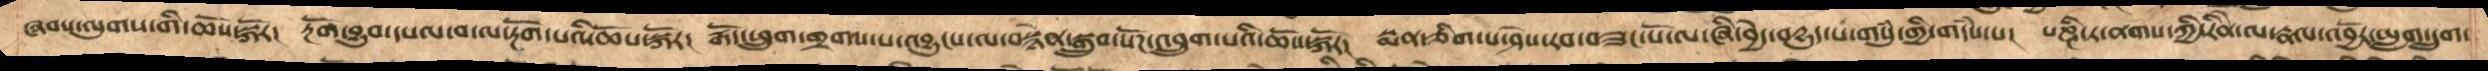ཞབས་ལུགས་གི་ཆོས་སྐོར།  རྔོག་བྱུབ་དཔལ་བ་ལ་རྔོག་པའི་ཆོས་སྐོར།  རྒོད་ཕྲུག་གྲགས་པ་འབྱུངས་ལ་བསྙེན་སྒྲུབ་སོཌ་འབྲུག་པའི་ཆོས་སྐོར།  སྨན་ཅིག་པ་ཤེས་རབ་བཟང་པོ་ལ་ཞི་བྱེད་བདྱུད་པ་གསུཾ་གྱི་གདཾས་པ།  པཎྜི་ཏ་ནགས་ཀྱི་རིནེ་ལ་རྣལ་འབྱོར་ཡླག་དྲུག་
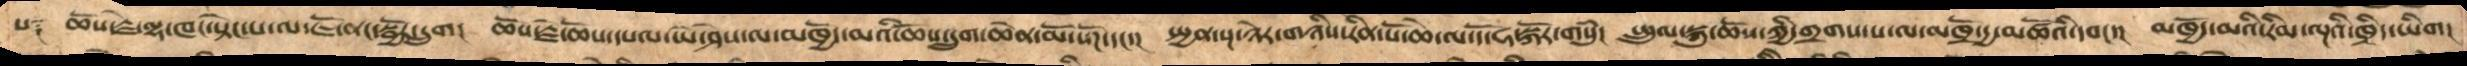པ༑  ཆོས་རྗེ་ལྷ་ཁང་སྟེང་པ་ལ་ཇོ་ནང་སྦྱོར་དྲུག།   ཆོས་རྗེ་ཆོས་དཔལ་ཡེ་ཤེས་ལ་མཁྱོད་མའི་ཆོས་དྲུག་ཆེན་མོ་སོཌ་དང་།  སྤྱན་སྔ་ཉེར་གཉིས་རིན་པོ་ཆེ་ལ་དོ་ཧ་སྐོར་གསུཾ།   སྤྲུལ་སྐུ་ཆོས་ཀྱི་གྲགས་པ་ལ་མཁྲོ་དྱ་མཚོའི་དབང་།   མཁྱོད་མའི་རིམ་ལྔའི་ཁྲིད་ཡིག་
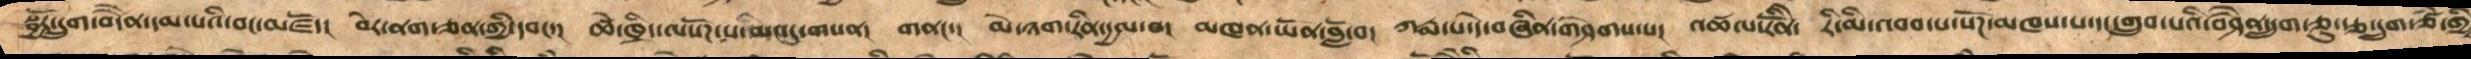སྦྱོར་དྲུག་བདཻན་དམ་པའི་བང་མཛོད།  བེར་ནག་ཅན་གྱི་དབང་།  ཚེ་ཁྲིད་ལསོཌ་པ་མང་དུ་གསན།  གནང་།  མེ་ཉག་རིན་དྱལ་བ།  མཁན་་ཡོན་བློ་བ་   ཀརྨ་པ་དེ་བཞིན་གཤེགས་པ།   འཚལ་རིནོ་ེ   རི་མི་འབབ་པ་སོཌ་མཁས་པ་དང་གྲུབ་པའི་བཤཻན་དྲུག་ཅུ་རྩ་དྲུག་ཙཾ་གྱི
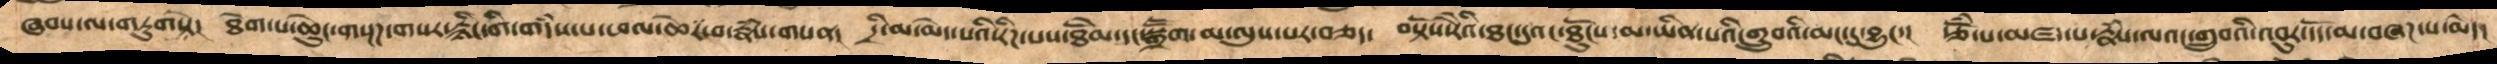ཞབས་ལ་གཏུགསྟེ།  ཐེག་པ་ཆེུང་གསྔཌ་གསར་རྙིང་གི་གདཾས་པ་ཕལ་ཆེར་བ་རྣཾས་གསན།   དྲི་མ་མེད་པའི་རིཌ་པས་ཐེམོ་དང་སྒྲཽག་མ་ལུས་པར་བཅད་  བསྟོས་རཻའི་ཐང་དུའང་ཐོུངས་མ་ཡིན་པའི་གྲུབའི་མང་དུ་འབྱུང་།   རྩོཾ་པ་མཛད་པ་རྣཾས་ལའང་གྲུབའི་འབུར་དོད་མ་བཞཌ་པ་མེད།
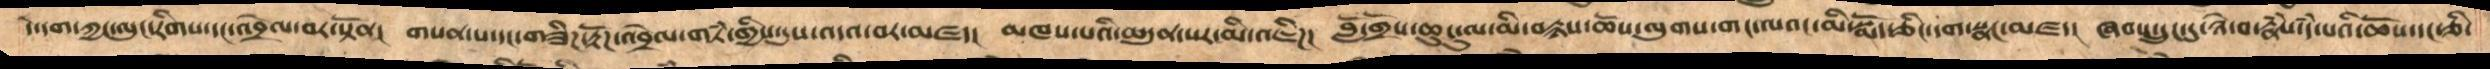དེ་དག་ཀྱང་ལུང་རིགས་དང་འབྲེལ་བར་སྟོན།  གསན་པ་དང་གཟིཌ་རྟོཌ་དང་འབྲེལ་གཏཾ་གྱིས་དུས་འདའ་བར་མཛད།  མཁས་པའི་མདུན་སར་མི་འཇིཌ།   བློ་གྲོས་ཆུངུ་ལ་མི་བརྙས་ཆོས་ལུགས་གང་ལའང་མི་སྨོད་ཅིང་དག་སྣང་མཛད།  ཞབས་དྲུང་དུ་ཉེ་བ་རྣཾས་དཾ་པའི་ཆོས་དང་ཅི་
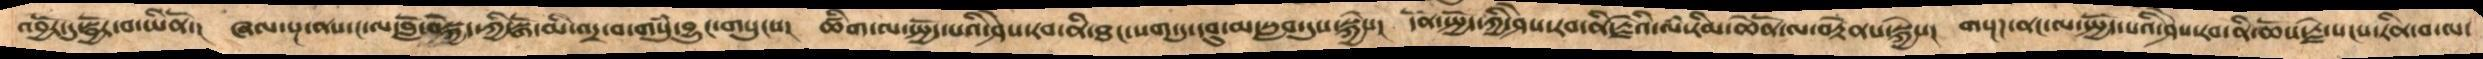འབྱོར་དུ་སྦྱོར་བ་ཡིནོ།  ཞལ་སྔ་ནས་ང་ལ་བློ་བསྐྱེད་ཀྱི་སྒོ་མི་འདྲ་བ་གསུཾ་བྱུང་གསུངས།  ཚིག་ལ་སྤྱོད་པའི་ཤེས་རབ་ནི་ཐང་སག་དུ་དབུ་མ་སླབ་དུས་སྐྱེས།  དོན་སྤྱོད་ཀྱི་ཤེས་རབ་ནི་རྗེའི་ལཾ་རིམ་ཆེནོ་ལ་བརྟེནས་སྐྱེས།  གསྔཌ་ནང་ལ་སྤྱོད་པའི་ཤེས་རབ་ནི་ཆོས་རྗེ་སངས་རིན་བ་ལ་
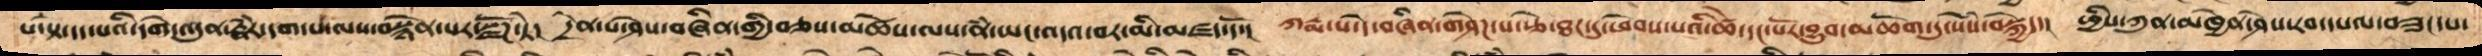པ་སྟེ་དད་པའི་དགེ་འདུན་རྣཾར་དག་པ་ལས་བསྙེན་པར་སྫོཌ་ཏེ།   དྲེན་པ་ཤེསབཞིན་གྱི་བཅས་མཚེས་ལས་ནཾ་ཡང་འདའ་བར་མི་མཛད་དོ།  ཀརྨ་པ་དེ་བཞིན་གཤེཌ་པ་རྩེ་ཐང་དུ་ཕེབས་པའི་ཚེ་དང་པོར་བྱུབ་མཆོག་ཏུ་སེསཾ་བསྐྱེད་།  ཕྱིས་ཀུན་མཁྱེན་ཤེས་རབ་དཔལ་བཟང་པ་
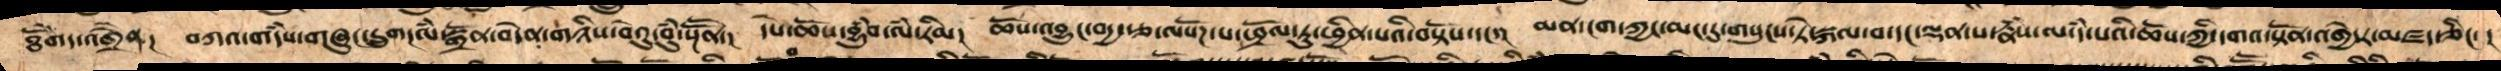ཐོགེད་འགྲཻན།   བཀའ་གདཾས་གཞུང་དྲུག་ལཾ་སྒྲོན་བདེན་གཉིས་བེའུ་བུཾ་སྔོཽན།  དཔེ་ཆོས་བྱུཾབ་ལཾ་རིམ།  ཆོས་འབྱུང་བདྱ་རྩ་ལསོཌ་པ་ཕྲོལ་ཏུ་ཕྱིན་པའི་བསྟོས་དང་།  མན་ངག་ཀྱང་མང་དུ་གསུངས་ཏེ་སྐལ་བ་དང་ལྡན་པ་རྣཾས་ལ་དཾ་པའི་ཆོས་ཀྱི་དགའ་སྟོན་འགྱེདར་མཛད་ཅིང་ །
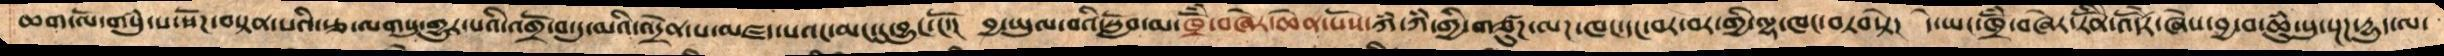ཆག་ལོ་གསུཾ་པ་སོཌ་བསྟན་པའི་རྩ་ལགསུ་གྱུར་པའི་འགྲོ་བ་དུ་མའི་འདྲེན་པ་མཛད་པའང་མང་དུ་བྱུང་ངོ་།   བྱ་ཡུལ་བའི་སློབ་མ་ཁྲོཾ་བཞེར་ཆེན་པོས་ཀཾ་ཀཾ་གྱི་གཙུཌ་ལཌ་ཁང་དང་བར་བར་གྱི་ལྷ་ཁང་བཏབ་ཏེ།   དེ་ཡང་ཁྲོཾ་བཞེར་རིནེོ་འདོརེ་ཞེས་བྱ་བ་ཆུཾ་སུ་སྔཌ་དྱུད་ལ་
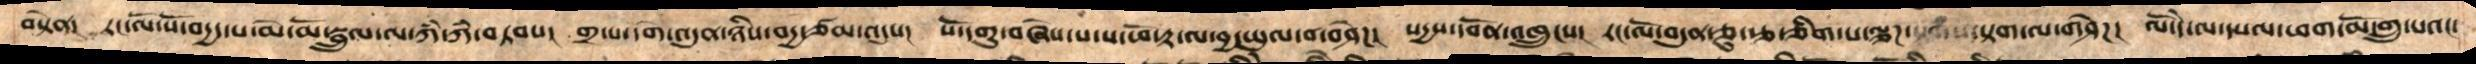བསྟེན།  རང་ལོ་སོ་བདྱད་པ་མེ་མོ་སྦྲུལ་ལ་ཀཾ་ཀཾ་བཏབས།   གྲ་པདགེ་འདུན་ཉིས་བདྱ་ཙམ་འདུས།   སོ་དགུ་བཞེས་པ་ས་ཕོ་རྟ་ལ་བྱ་ཡུལ་བ་གཤེཌ།   སདྱས་དབོན་འཁྲུངས།  རང་ལོ་བདུན་ཅུ་རྩ་ཅིག་པ་ལྕཌ་སྟག་ལ་གཤེཌ། ལོ་དེ་ལ་དཔལ་ཕག་མོ་གྲུ་པའང་
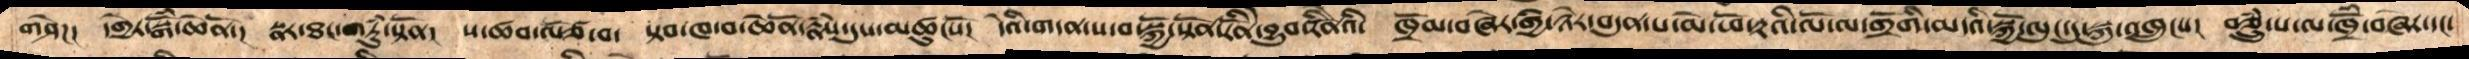གཤེཌ།  དགྱེར་སྒོཾ་ཆེནོ།  སྣར་ཐང་གཏུཾ་སྟོན།  ས་ཚབ་ལོ་ཙ་བ།  སྟབ་ཁ་བ་ཆེནོ་རྣཾས་དུས་མཚུངསོ།   དེའི་གདན་ས་བ་སྐྱོ་སྟོན་རིནོེ་བྱུབ་རིནོེའི་   ཁྲོམ་ཞེར་གྱི་ཉེར་བདུན་པ་མེ་ཕོ་རྟའི་ལོ་ལ་གྲོགི་མདའི་སྐྱོ་ལུང་དུ་སྐུ་འཁྲུངས།  བཅྲུཾ་པ་ལ་ཁྲོཾ་བཞེར་དང་
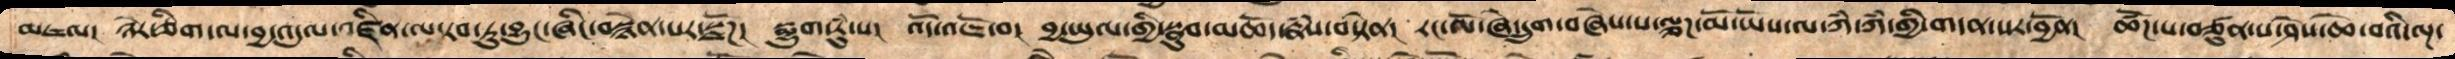མཇལ།  ཉེར་ཅིག་ལ་བྱ་འདུལ་འཛིན་ལ་རབ་ཏུ་བྱུང་ཞིང་བསྙེན་པར་སྫོཌ།  སྨྱུག་རུཾ་པ།  འདོ་འཇོ་བ།  བྱ་ཡུལ་གྱི་སྣུབ་མཆོད་རྣཾས་བསྟེན།  རང་ལོ་ཞེ་དྲུག་བཞེས་པ་ལྕཌ་མོ་ཡོས་ལ་ཀཾ་ཀཾ་གྱི་གདན་སར་བྱོན།  ཚོཌ་པ་བཙུན་པ་ཤས་ཆེ་བའི་ལྔ་
